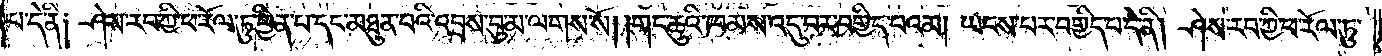པ་དེ་ནི༑ ཤེས་རབ་ཀྱི་ཕ་རོལ་ཏུ་ཕྱིན་པ་དང་མཐུན་པའི་འབྲས་བུ་མ་ལགས་སོ། །གང་ཆུའི་ཁམས་འདུ་བར་བགྱིད་པའམ། ཡངས་པར་བགྱིད་པ་དེ་ནི། ཤེས་རབ་ཀྱི་ཕ་རོལ་ཏུ་
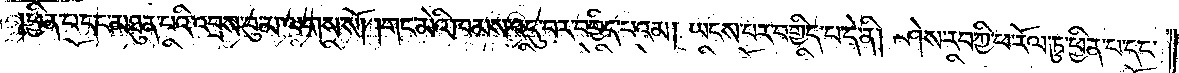ཕྱིན་པ་དང་མཐུན་པའི་འབྲས་བུ་མ་ལགས་སོ། །གང་མེའི་ཁམས་འདུ་བར་བགྱིད་པའམ། ཡངས་པར་བགྱིད་པ་དེ་ནི། ཤེས་རབ་ཀྱི་ཕ་རོལ་ཏུ་ཕྱིན་པ་དང་
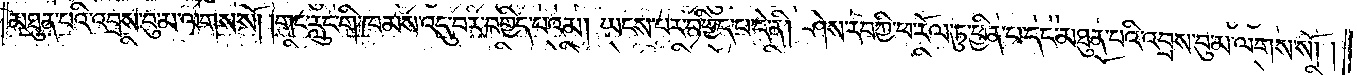མཐུན་པའི་འབྲས་བུ་མ་ལགས་སོ། །གང་རླུང་གི་ཁམས་འདུ་བར་བགྱིད་པའམ། ཡངས་པར་བགྱིད་པ་དེ་ནི། ཤེས་རབ་ཀྱི་ཕ་རོལ་ཏུ་ཕྱིན་པ་དང་མཐུན་པའི་འབྲས་བུ་མ་ལགས་སོ། །
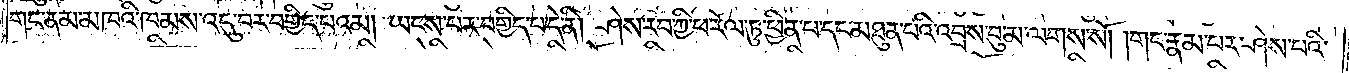གང་ནམ་མཁའི་ཁམས་འདུ་བར་བགྱིད་པའམ། ཡངས་པར་བགྱིད་པ་དེ་ནི། ཤེས་རབ་ཀྱི་ཕ་རོལ་ཏུ་ཕྱིན་པ་དང་མཐུན་པའི་འབྲས་བུ་མ་ལགས་སོ། །གང་རྣམ་པར་ཤེས་པའི་
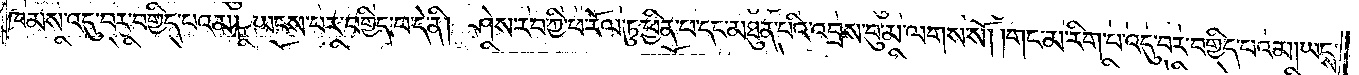ཁམས་འདུ་བར་བགྱིད་པའམ། ཡངས་པར་བགྱིད་པ་དེ་ནི། ཤེས་རབ་ཀྱི་ཕ་རོལ་ཏུ་ཕྱིན་པ་དང་མཐུན་པའི་འབྲས་བུ་མ་ལགས་སོ། །གང་མ་རིག་པ་འདུ་བར་བགྱིད་པའམ། ཡངས་
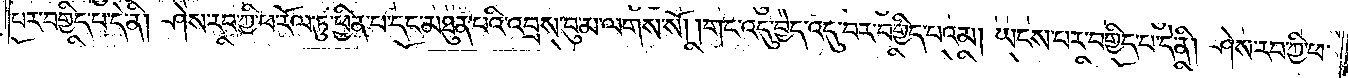པར་བགྱིད་པ་དེ་ནི། ཤེས་རབ་ཀྱི་ཕ་རོལ་ཏུ་ཕྱིན་པ་དང་མཐུན་པའི་འབྲས་བུ་མ་ལགས་སོ། །གང་འདུ་བྱེད་འདུ་བར་བགྱིད་པའམ། ཡངས་པར་བགྱིད་པ་དེ་ནི། ཤེས་རབ་ཀྱི་ཕ་
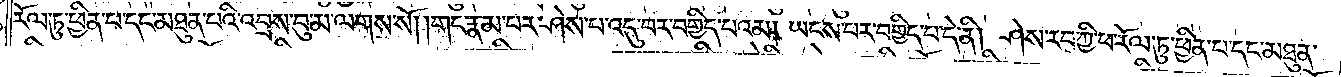རོལ་ཏུ་ཕྱིན་པ་དང་མཐུན་པའི་འབྲས་བུ་མ་ལགས་སོ། །གང་རྣམ་པར་ཤེས་པ་འདུ་བར་བགྱིད་པའམ། ཡངས་པར་བགྱིད་པ་དེ་ནི། ཤེས་རབ་ཀྱི་ཕ་རོལ་ཏུ་ཕྱིན་པ་དང་མཐུན་
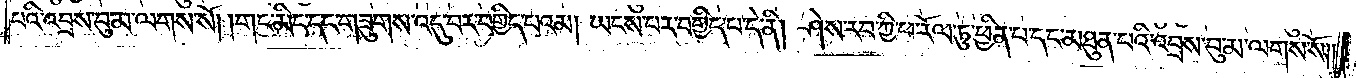པའི་འབྲས་བུ་མ་ལགས་སོ། །གང་མིང་དང་གཟུགས་འདུ་བར་བགྱིད་པའམ། ཡངས་པར་བགྱིད་པ་དེ་ནི། ཤེས་རབ་ཀྱི་ཕ་རོལ་ཏུ་ཕྱིན་པ་དང་མཐུན་པའི་འབྲས་བུ་མ་ལགས་སོ། །
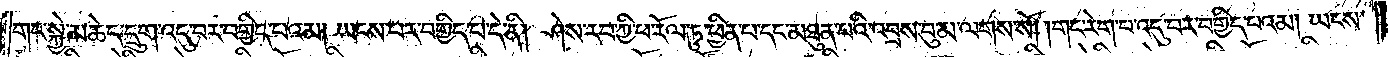གང་སྐྱེ་མཆེད་དྲུག་འདུ་བར་བགྱིད་པའམ། ཡངས་པར་བགྱིད་པ་དེ་ནི། ཤེས་རབ་ཀྱི་ཕ་རོལ་ཏུ་ཕྱིན་པ་དང་མཐུན་པའི་འབྲས་བུ་མ་ལགས་སོ། །གང་རེག་པ་འདུ་བར་བགྱིད་པའམ། ཡངས་
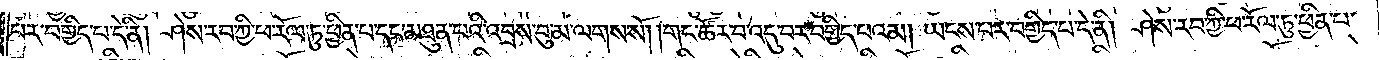པར་བགྱིད་པ་དེ་ནི། ཤེས་རབ་ཀྱི་ཕ་རོལ་ཏུ་ཕྱིན་པ་དང་མཐུན་པའི་འབྲས་བུ་མ་ལགས་སོ། །གང་ཚོར་བ་འདུ་བར་བགྱིད་པའམ། ཡངས་པར་བགྱིད་པ་དེ་ནི། ཤེས་རབ་ཀྱི་ཕ་རོལ་ཏུ་ཕྱིན་པ་
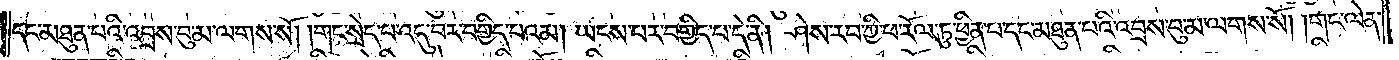དང་མཐུན་པའི་འབྲས་བུ་མ་ལགས་སོ། །གང་སྲེད་པ་འདུ་བར་བགྱིད་པའམ། ཡངས་པར་བགྱིད་པ་དེ་ནི། ཤེས་རབ་ཀྱི་ཕ་རོལ་ཏུ་ཕྱིན་པ་དང་མཐུན་པའི་འབྲས་བུ་མ་ལགས་སོ། །གང་ལེན་
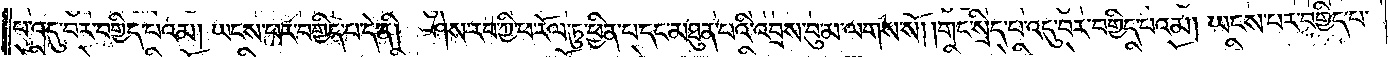པ་འདུ་བར་བགྱིད་པའམ། ཡངས་པར་བགྱིད་པ་དེ་ནི། ཤེས་རབ་ཀྱི་ཕ་རོལ་ཏུ་ཕྱིན་པ་དང་མཐུན་པའི་འབྲས་བུ་མ་ལགས་སོ། །གང་སྲིད་པ་འདུ་བར་བགྱིད་པའམ། ཡངས་པར་བགྱིད་པ་
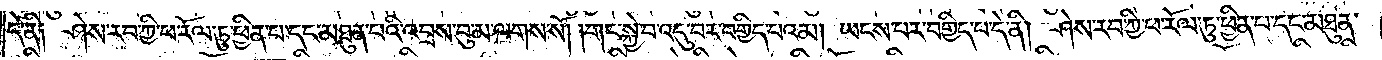དེ་ནི༑ ཤེས་རབ་ཀྱི་ཕ་རོལ་ཏུ་ཕྱིན་པ་དང་མཐུན་པའི་འབྲས་བུ་མ་ལགས་སོ། །གང་སྐྱེ་བ་འདུ་བར་བགྱིད་པའམ། ཡངས་པར་བགྱིད་པ་དེ་ནི། ཤེས་རབ་ཀྱི་ཕ་རོལ་ཏུ་ཕྱིན་པ་དང་མཐུན་
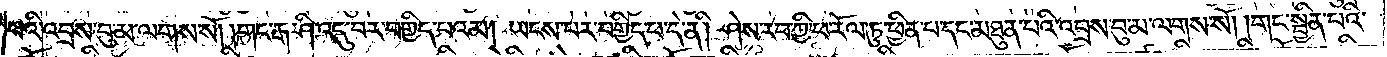པའི་འབྲས་བུ་མ་ལགས་སོ། །གང་རྒ་ཤི་འདུ་བར་བགྱིད་པའམ། ཡངས་པར་བགྱིད་པ་དེ་ནི། ཤེས་རབ་ཀྱི་ཕ་རོལ་ཏུ་ཕྱིན་པ་དང་མཐུན་པའི་འབྲས་བུ་མ་ལགས་སོ། །གང་སྦྱིན་པའི་
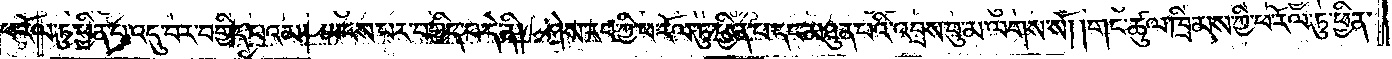ཕ་རོལ་ཏུ་ཕྱིན་པ་འདུ་བར་བགྱིད་པའམ། ཡངས་པར་བགྱིད་པ་དེ་ནི། ཤེས་རབ་ཀྱི་ཕ་རོལ་ཏུ་ཕྱིན་པ་དང་མཐུན་པའི་འབྲས་བུ་མ་ལགས་སོ། །གང་ཚུལ་ཁྲིམས་ཀྱི་ཕ་རོལ་ཏུ་ཕྱིན་
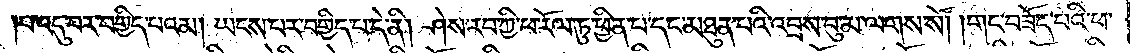པ་འདུ་བར་བགྱིད་པའམ། ཡངས་པར་བགྱིད་པ་དེ་ནི། ཤེས་རབ་ཀྱི་ཕ་རོལ་ཏུ་ཕྱིན་པ་དང་མཐུན་པའི་འབྲས་བུ་མ་ལགས་སོ། །གང་བཟོད་པའི་ཕ་
